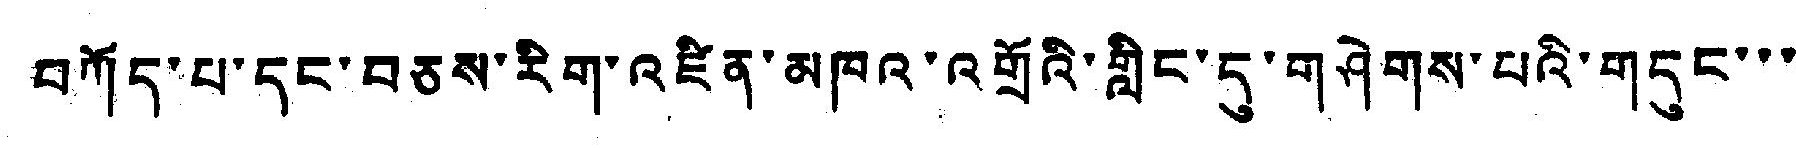བཀོད་པ་དང་བཅས་རིག་འཛིན་མཁའ་འགྲོའི་གླིང་དུ་གཤེགས་པའི་གདུང་་་
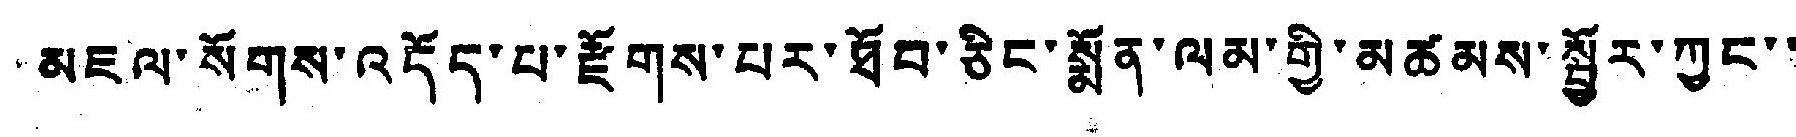མཇལ་སོགས་འདོད་པ་རྫོགས་པར་ཐོབ་ཅིད་སྨོན་ལམ་གྱི་མཚམས་སྦྱོར་ཀྱང་་
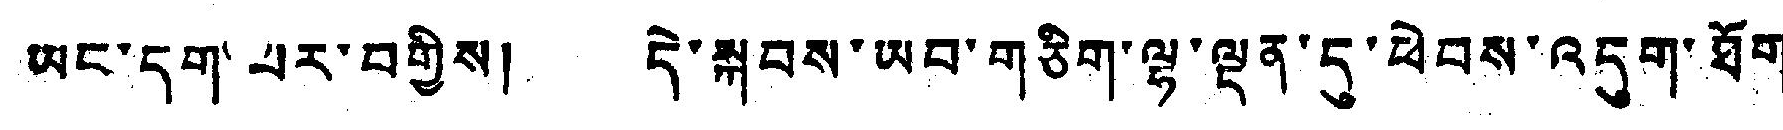ཡང་དག་པར་བགྱིས། དེ་སྐབས་ཡབ་གཅིག་ལྷ་ལྡན་དུ་ཕེབས་འདུག་ཐོག་
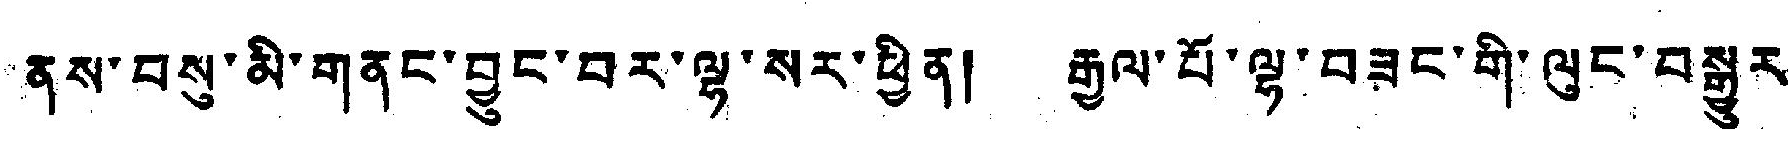ནས་བསུ་མི་གནང་བྱུང་བར་ལྷ་སར་ཕྱིན། རྒྱལ་པོ་ལྷ་བཟང་གི་ལུང་བསྒྱུར་
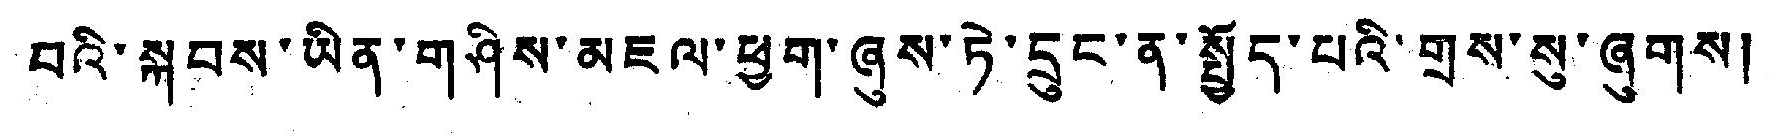བའི་སྐབས་ཡིན་གཤིས་མཇལ་ཕྱག་ཞུས་ཏེ་དྲུང་ན་སྤྱོད་པའི་གྲས་སུ་ཞུགས།
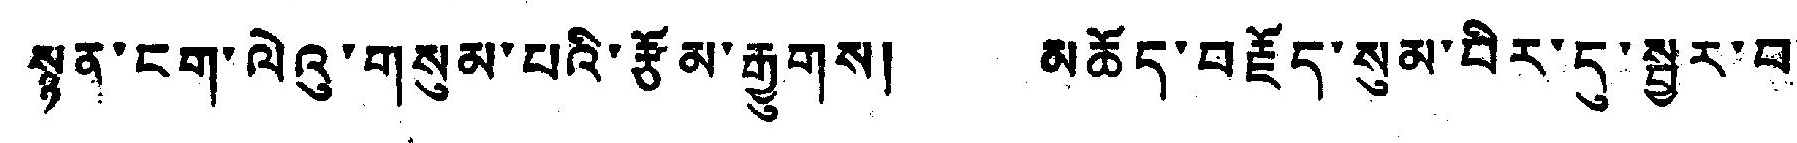སྙན་ངག་ལེའུ་གསུམ་པའི་རྩོམ་རྒྱུགས། མཆོད་བརྗོད་སུམ་བིར་དུ་སྦྱར་བ་
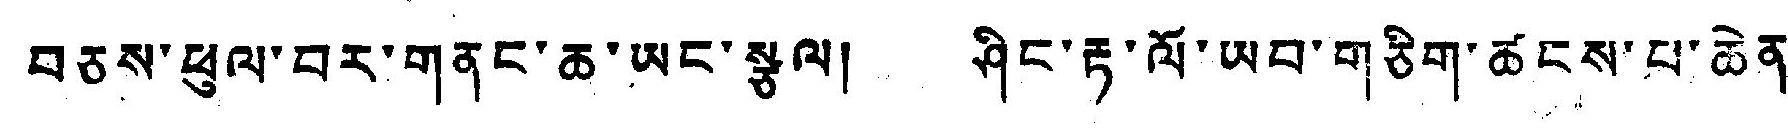བཅས་ཕུལ་བར་གནང་ཆ་ཡང་སྩལ། ཤིང་རྟ་ལོ་ཡབ་གཅིག་ཚངས་པ་ཆེན་
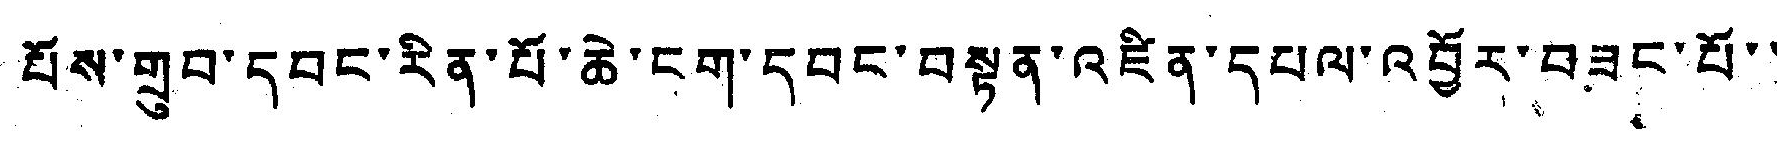པོས་གྲུབ་དབང་རིན་པོ་ཆེ་ངག་དབང་བསྟན་འཛིན་དཔལ་འབྱོར་བཟང་པོ་་
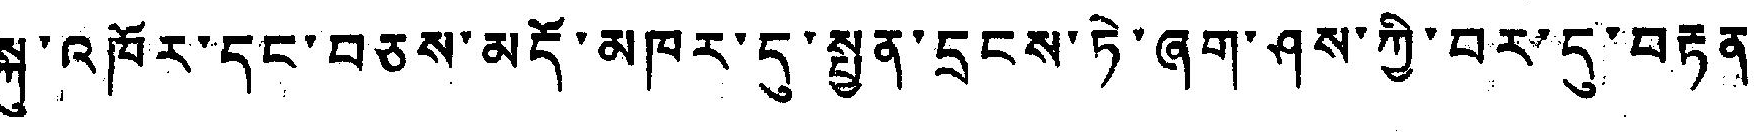སྐུ་འཁོར་དང་བཅས་མདོ་མཁར་དུ་སྤྱན་དྲངས་ཏེ་ཞག་ཤས་ཀྱི་བར་དུ་བརྟན་
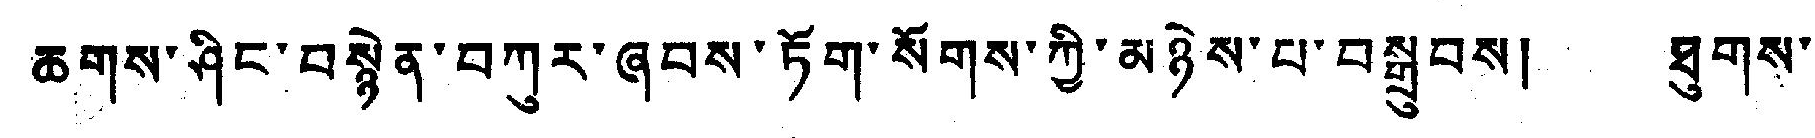ཆགས་ཤིང་བསྙེན་བཀུར་ཞབས་ཏོག་སོགས་ཀྱི་མཉེས་པ་བསྒྲུབས། ཐུགས་
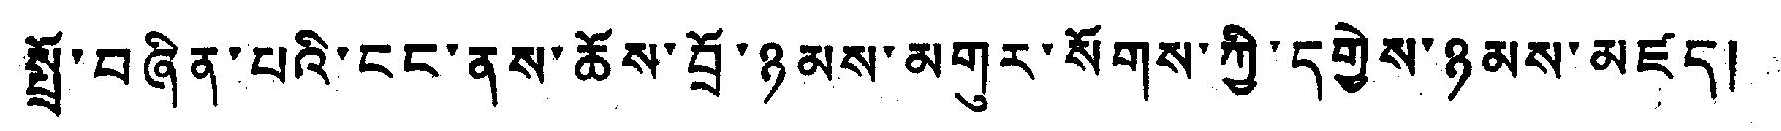སྤྲོ་བཞིན་པའི་ངང་ནས་ཆོས་བྲོ་ཉམས་མགུར་སོགས་ཀྱི་དགྱེས་ཉམས་མཛད།
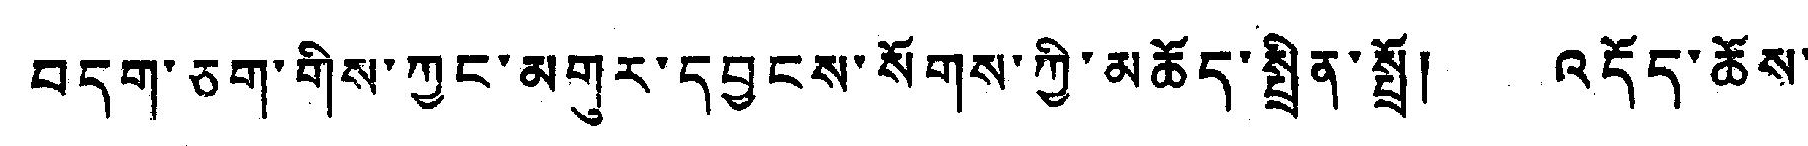བདག་ཅག་གིས་ཀྱང་མགུར་དབྱངས་སོགས་ཀྱི་མཆོད་སྤྲིན་སྤྲོ། འདོད་ཆོས་
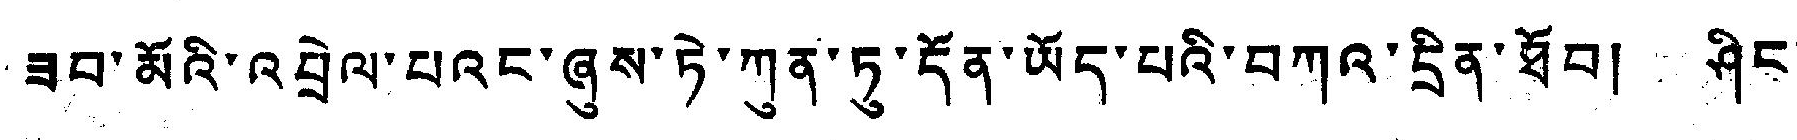ཟབ་མོའི་འབྲེལ་པའང་ཞུས་ཏེ་ཀུན་ཏུ་དོན་ཡོད་པའི་བཀའ་དྲིན་ཐོབ། ཤིང་་
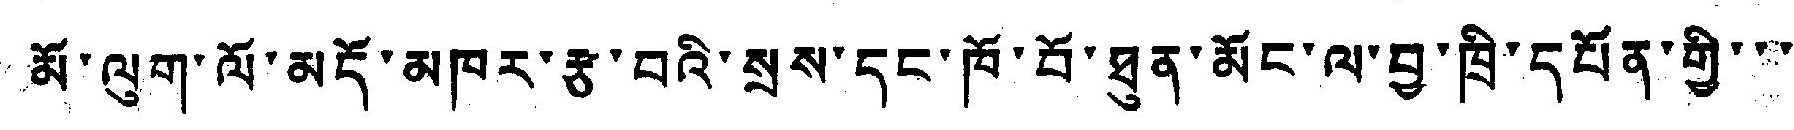མོ་ལུག་ལོ་མདོ་མཁར་རྩ་བའི་སྲས་དང་ཁོ་བོ་ཐུན་མོང་ལ་བྱ་ཁྲི་དཔོན་གྱི་་་
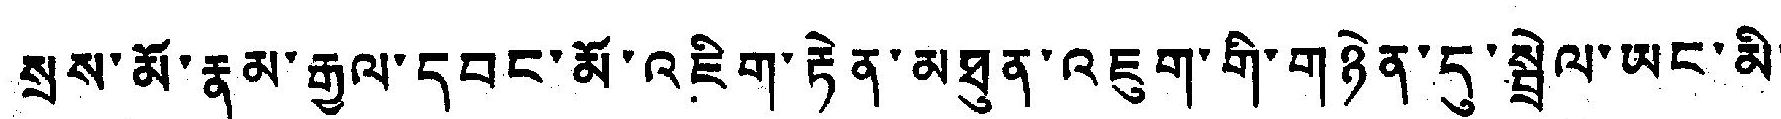སྲས་མོ་རྣམ་རྒྱལ་དབང་མོ་འཇིག་རྟེན་མཐུན་འཇུག་གི་གཉེན་དུ་སྦྲེལ་ཡང་མི་
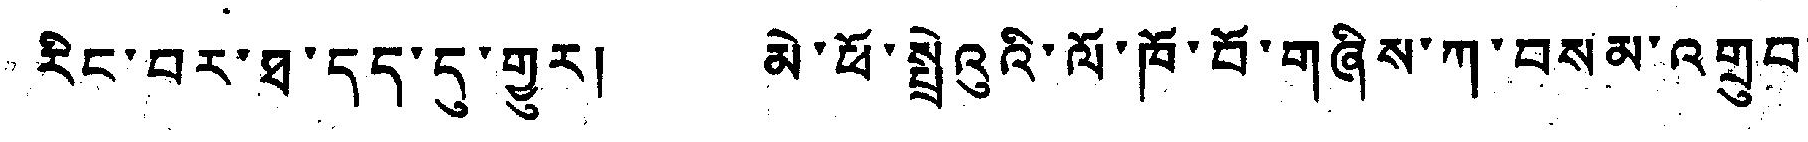རིང་བར་ཐ་དད་དུ་གྱུར། མེ་ཕོ་སྤྲེའུའི་ལོ་ཁོ་བོ་གཞིས་ཀ་བསམ་འགྲུབ་
